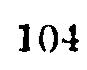104
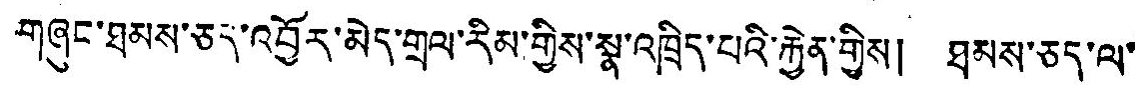གཞུང་ཐམས་ཅད་འབྱོར་མེད་གྲལ་རིམ་གྱིས་སྣ་འཁྲིད་པའི་རྐྱེན་གྱིས། ཐམས་ཅད་ལ་
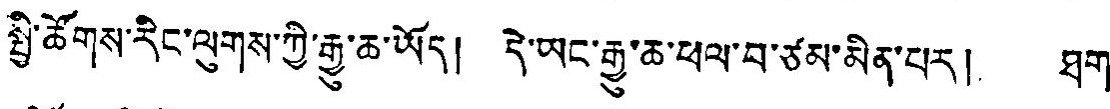སྤྱི་ཚོགས་རིང་ལུགས་ཀྱི་རྒྱ་ཆ་ཡོད། དེ་ཡང་རྒྱུ་ཆ་ཕལ་བ་ཙམ་མིན་པར། ཐག་
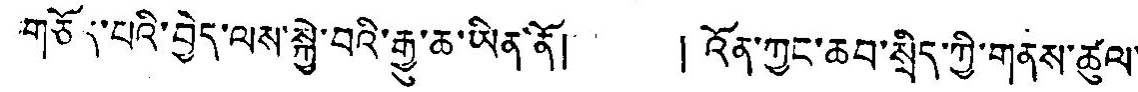གཅོད་པའི་བྱེད་ལས་སྐྱེ་བའི་རྒྱུ་ཆ་ཡིན་ནོ། །འོན་ཀྱང་ཆབ་སྲིད་ཀྱི་གནས་ཚུལ་
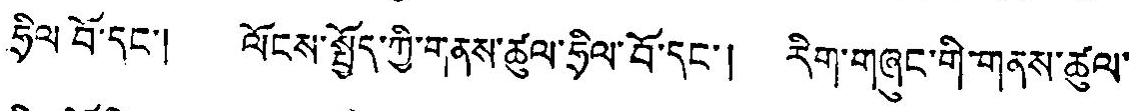ཧྲིལ་བོ་དང་། ལོངས་སྤྱོད་ཀྱི་གནས་ཚུལ་ཧྲིལ་བོ་དང་། རིག་གཞུང་གི་གནས་ཚུལ་
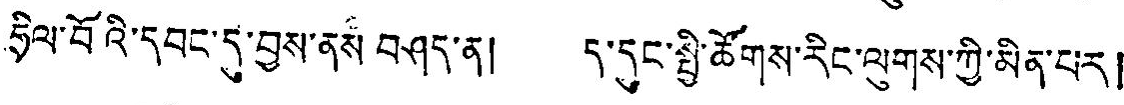ཧྲིལ་བོའི་དབང་དུ་བྱས་ནས བཤད་ན། ད་དུང་སྤྱི་ཚོགས་རིང་ལུགས་ཀྱི་མིན་པར།
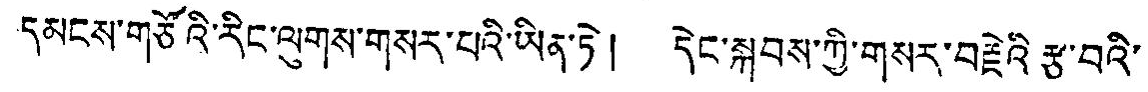དམངས་གཙོའི་རིང་ལུགས་གསར་པའི་ཡིན་ཏེ། དེང་སྐབས་ཀྱི་གསར་བརྗེའི་རྩ་བའི་
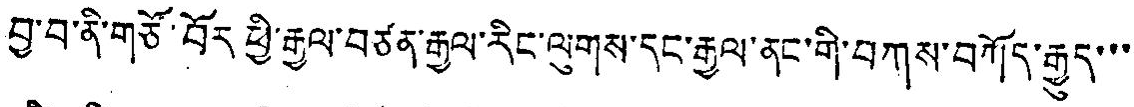བྱ་བ་ནི་གཙོ་བོར་ཕྱི་རྒྱལ་བཙན་རྒྱལ་རིང་ལུགས་དང་རྒྱལ་ནང་གི་བཀས་བཀོད་རྒྱུད་་་
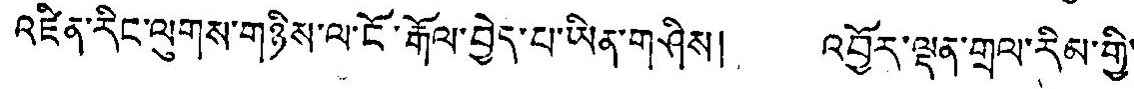འཛིན་རིང་ལུགས་གཉིས་ལ་ངོ་རྒོལ་བྱེད་པ་ཡིན་གཤིས། འབྱོར་ལྡན་གྲལ་རིམ་གྱི་
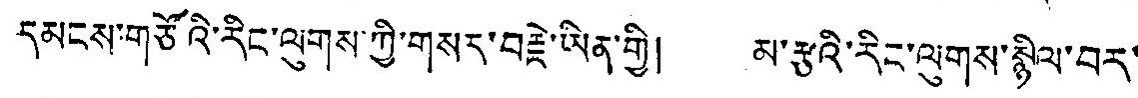དམངས་གཙོའི་རིང་ལུགས་ཀྱི་གསར་བརྗེ་ཡིན་གྱི། མ་རྩའི་རིང་ལུགས་སྙིལ་བར་
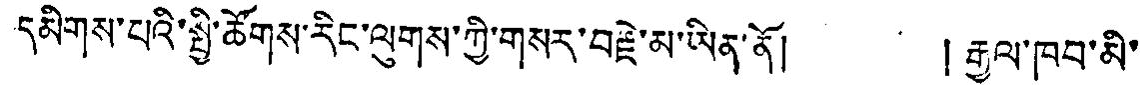དམིགས་པའི་སྤྱི་ཚོགས་རིང་ལུགས་ཀྱི་གསར་བརྗེ་མ་ཡིན་ནོ། །རྒྱལ་ཁབ་མི་
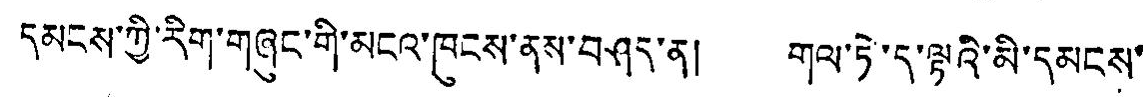དམངས་ཀྱི་རིག་གཞུང་གི་མངའ་ཁུངས་ནས་བཤད་ན། གལ་ཏེ་ད་ལྟའི་མི་དམངས་
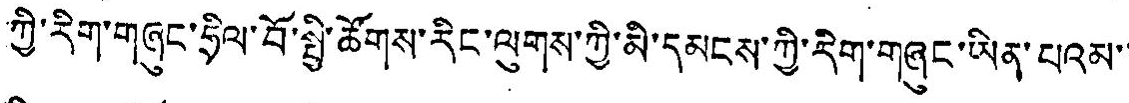ཀྱི་རིག་གཞུང་ཧྲིལ་བོ་སྤྱི་ཚོགས་རིང་ལུགས་ཀྱི་མི་དམངས་ཀྱི་རིག་གཞུང་ཡིན་པའམ་་
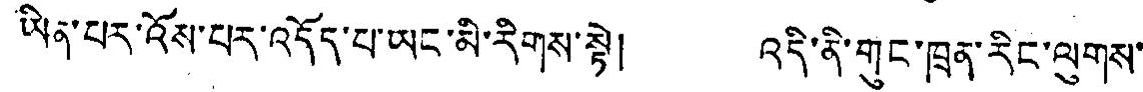ཡིན་པར་འོས་པར་འདོད་པ་ཡང་མི་རིགས་སྟེ། འདི་ནི་གུང་ཁྲན་རིང་ལུགས་
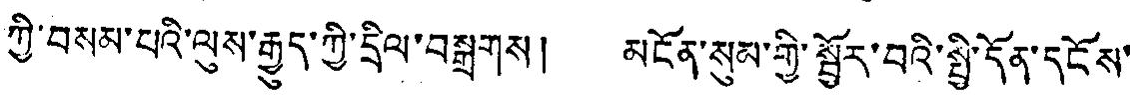ཀྱི་བསམ་པའི་ལུས་རྒྱུད་ཀྱི་དྲིལ་བསྒྲགས། མངོན་སུམ་གྱི་སྦྱོར་བའི་སྤྱི་དོན་དངོས་
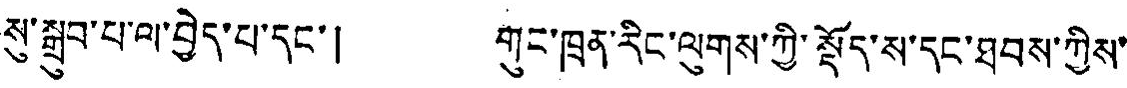སུ་སྒྲུབ་པ་ལ་བྱེད་པ་དང་། གུང་ཁྲན་རིང་ལུགས་ཀྱི་སྡོད་ས་དང་ཐབས་ཀྱིས་
